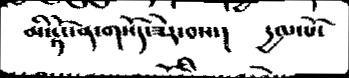མི་སྟོང་ན་གསོད་ཟེར་བས་།  དྱལ་པོ་
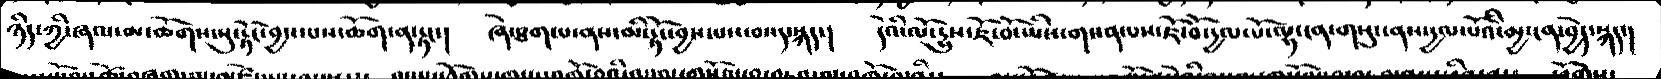ཉིད་ཀྱི་ཞལ་མ་ཆོགས་སུ་རྟོང་བྱས་པས་ཆོག་ན་རྟང་།  ཞེ་ཐག་པ་ནས་མི་རྟོང་བྱས་པས་བསད་སྐད་།  དེའི་ལོ་དྱུས་ཇོ་བོ་ཡིས་གསན་པས་ཇོ་བོ་དྱལ་པོ་ལྟ་ངན་གསུང་ནས་དྱལ་པོའི་མྱ་ངན་བྱེད་སྐད་།
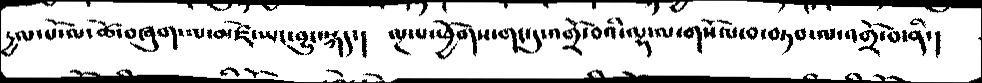དྱལ་པོ་ལ་ཚེ་བཞུག་ལ་མཛེ་ཡང་་བྱུང་སྐད་།   ལྔ་པ་ཕྱོགས་གང་དུ་འགྲོ་བའི་ལྷ་ལ་གསོལ་བ་བཏབ་ལ་འགྲོ་བ་ནི་།
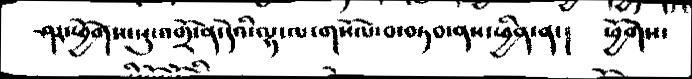ཤར་ཕྱོགས་སུ་འགྲོ་ན་དེ་ལྷ་ལ་གསོལ་བ་བཏབ་ནས་ཕྱིན་ན་།  ཕྱོགས་
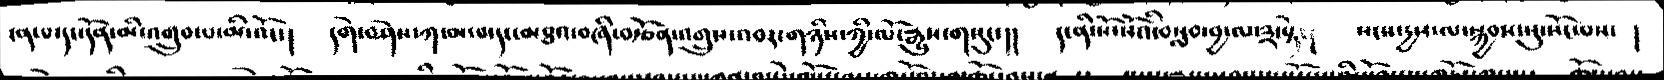ངན་པ་དང་དོན་མི་འགྲུབ་པ་མི་འོང་།   དགེ་བཤེས་ཀ་མ་མདང་མཐའ་བཞི་བརྩོན་འགྲུས་འབར་གཉིས་ཀྱི་ལོ་རྒྱུས་གསུང་།།   ད་ནི་སོ་སོའི་བསླབ་བྱ་ལ་༣་སྟེ་།   སངས་རྒྱས་ལ་སྐྱབས་སུ་སོང་པས་ །
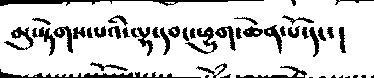མུ་སྟེགས་པའི་ལྷ་དབང་ཕྱུག་ཆེན་པོ་དང་།
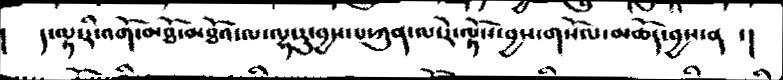།    ད་ལྟ་རི་འགོ་མཐོ་མཐོའ་ལ་ལྷ་རུ་བྱས་པ་ཀུན་ལ་རེ་ལྟོས་བྱས་གསོལ་མཆོད་བྱས་ན    ་།
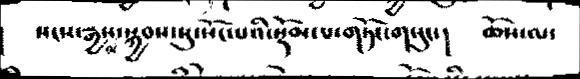།    སངས་རྒྱས་ལ་སྐྱབས་སུ་སོང་པའི་སྡོམ་པ་གཏོང་གསུང་།    ཆོས་ལ་
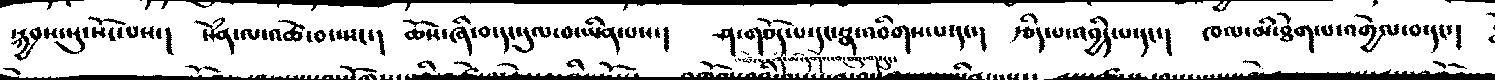སྐྱབས་སུ་སོང་པས་།   སེཾན་ལ་འཚེ་བ་སྤང་།   ཆོས་ཞི་བ་དང་དུལ་བ་ཡིན་པས་།   ཤ་གཅོད་པ་དང་སྣ་འབིགས་པ་དང་།  རྩིད་པ་འབྱིད་པ་དང་།   ཁལ་མི་ཐེག་པ་འགྱེལ་བ་དང་།
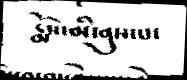རྨོས་མི་ནུས་པ་
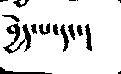བྱེད་པ་དང་།
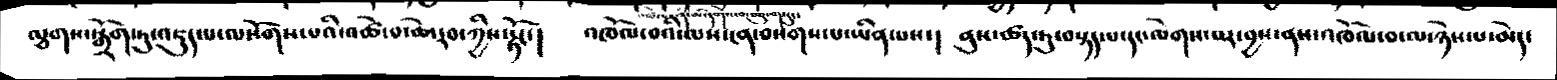ལྕགས་སྒྲོག་ཏུ་འཇུད་པ་ལསོགས་པའི་འཚེ་བ་ཆེ་རབ་ཀྱིས་རྟོང་།   འཁོལ་བའི་ལས་ལས་ངན་བསགས་པ་ཡིན་པས་།   ནུས་ཚད་ཏུ་བསྟད་པ་དང་ལེགས་པར་བྱས་ནས་འཁོལ་བ་ལ་ཉེས་པ་མེད་
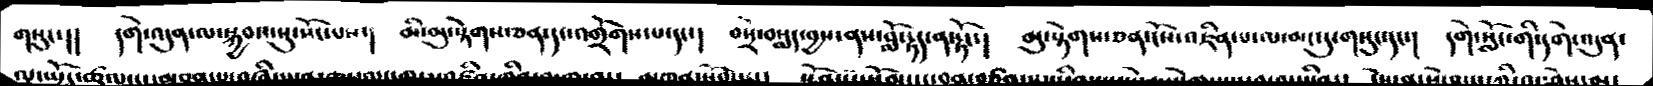གསུང་།།  དགེ་འདུན་ལ་སྐྱབས་སུ་སོང་པས་།   མི་མུ་སྟེགས་ཅན་དང་འགྲོགས་པ་དང་།    བསྲེ་བསླད་བྱས་ནས་བློ་རྟད་ན་རྟོང་།   མུ་སྟེགས་ཅན་ངོས་འཇིན་པ་ལ་མང་དུ་གསུང་དང་།   དགེ་སློང་གི་དགེ་འདུན་
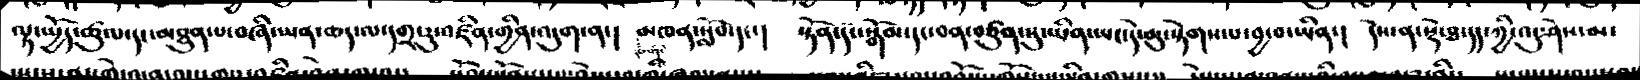ལྟ་སྤྱོད་ཚུལ་དང་མཐུན་པ་བཞི་ཡན་ཆད་ལ་དགྲ་རུ་འཛིན་གྱིན་འདུག་ན་།  མཁན་སློབ་དང་།  སྟོན་དང་སྒོམ་དང་བན་བཙུན་སུ་ཡིན་ཡང་དེ་མུ་སྟེགས་པ་བྱ་བ་ཡིན་།  དེས་ན་སྡེ་ཐ་དད་ཀྱི་འདུ་ཤེས་མ་
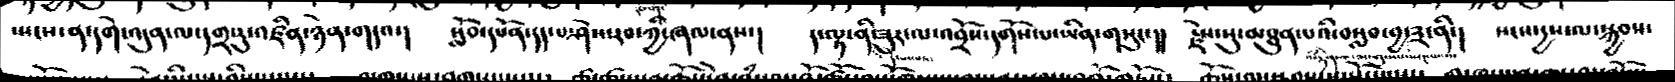སྤངས་ན་དགེ་འདུན་ལ་དགྲ་རུ་འཛིན་ཉེན་གདའ་།  སློབ་དཔོན་དད་པ་ཤེས་རབ་ཀྱི་ཞལ་ནས་།  ད་ལྟ་ནི་ཟུར་ལ་འབྲོས་དགོས་པ་ཡིན་གསུང་།།  རྗེས་སུ་མཐུན་པའི་བསླབ་བྱ་༣་ནི་།  སངས་དྱས་སྐྱབས་
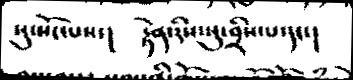སུ་སོང་པས་།  རྟེན་རིས་སུ་བྲིས་པ་དང་།
